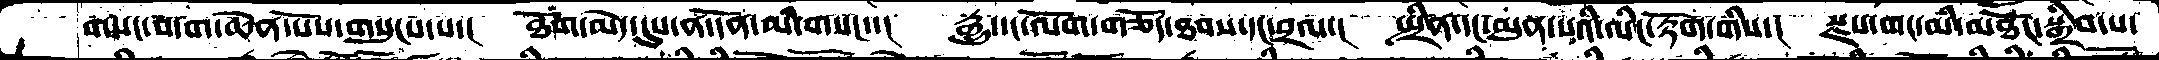གསང་བདག་ཆེན་པོས་གསུངས་པ་།   ཐོག་མེད་དུས་ན་དོན་མི་གསང་་།   རྒྱུ་དང་ལོག་གཅོད་ཐབས་དང་བྲལ་།  སྤྲིན་དང་མུན་པའི་ལིང་རྟོག་གིས་།   སྫས་གང་མིི་མཐོང་སྒྲིབ་པ་
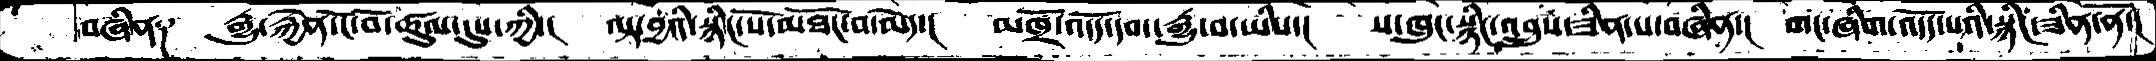བཞིན༑   རྒྱུ་རྐྱེན་ངོ་བོ་ཚུལ་དུས་ཀྱི་།   ལྟ་བྱའི་སྙིང་པོ་མཐོང་བ་མེད་།   མཁྲོ་འདོད་དབང་རྒྱུ་བ་ཡིས་།   ས་ཁུང་སྙིང་འབྲུས་ཟིན་པ་བཞིན་།   གང་ཞིག་འདོད་པའི་སྙིང་ཟིན་ནོ་།
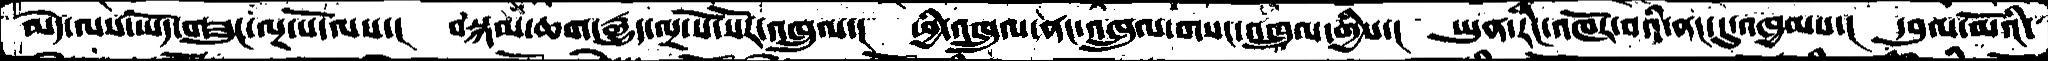མེད་ལས་ཡོད་གཟུང་ལྔ་པོ་ལས་།   བསྐམ་ཆག་རྒྱུད་ལྔ་སོ་སོར་འཁྲུལ་།   ཕྱི་འཁྲུལ་ནང་འཁྲུལ་གསང་འཁྲུལ་གྱིས་།   ཡུན་རིང་འཁོར་བའི་ནང་དུ་འཁྱམས་།   དབུལ་མོའི་
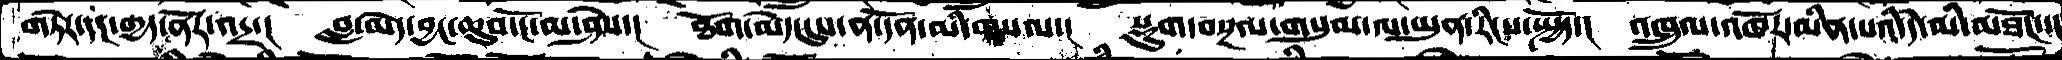གཏེར་དང་གྱད་ནོར་འདྲ་།  བླ་མེད་བྱང་ཆུབ་ངོ་མ་ཤེས་།  ཐོག་མེད་དུས་ན་དོན་མི་གསལ་།  སྡུག་བསྔལ་གསུམ་ལ་ཡུན་རིངས་སྤྱོད་།  འཁྲུལ་འཁོར་མིན་པའི་དེ་མི་མཐོང་་
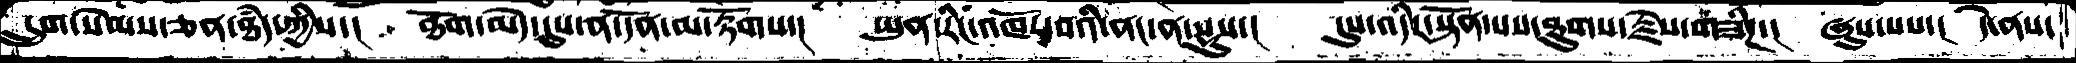དྲུག་སེམས་ཅན་ཐཾད་ཀྱིས་།   ཐོག་མེད་དུས་ན་དོན་མ་རྟོགས་།  ཡུན་རིང་འཁོར་བའི་ནང་ན་སྡུས་།  དུས་འདིར་སྟོན་པས་ཐུགས་རྗེས་གཟིཌ་།  ཞུས་པས་།  དེ་ནས་
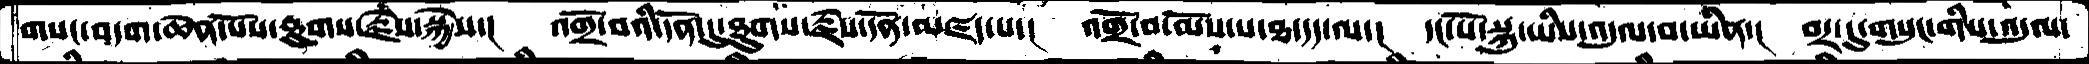གསང་བདག་ཆེན་པོས་ཐུགས་རྗེས་སྐྱེས་།  འགྲོ་བའི་དོན་དུ་ཐུགས་རྗེས་དོན་མཛད་པ་།  འགྲོ་བ་མོས་པ་ཐ་དད་ལ་།  དང་པོ་སྐུ་ཡིས་འདུལ་བ་ཡིན་།  བར་དུ་གསུང་གིས་འདུལ་
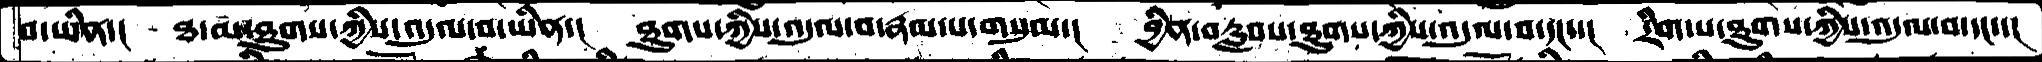བ་ཡིན་།   ཐ་མ་ཐུགས་ཀྱིས་འདུལ་བ་ཡིན་།  ཐུགས་ཀྱིས་འདུལ་བ་རྣམ་པ་གསུམ་།  བྱིན་བརླབས་ཐུགས་ཀྱིས་འདུལ་བ་དང་་།  རིག་པ་ཐུགས་ཀྱིས་འདུལ་བ་དང་་།
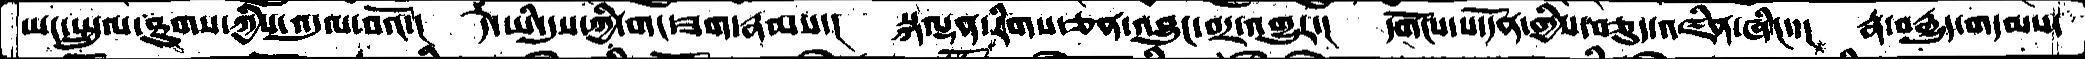ཡང་སྤྲུལ་ཐུགས་ཀྱིས་འདུལ་བའོ་།  དེ་ཡི་དུས་ཀྱི་གང་ཟག་རྣམས་།  སྐལྡན་རིགས་ཅན་འཐུང་བར་འགྱུར་།  དགོངས་པ་དོན་གྱིས་བཅུད་འཛིན་ཞིང་་།  རྣ་བརྒྱུད་གདམས་
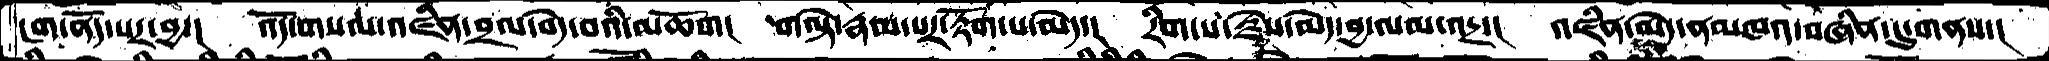ངག་ནོད་པར་བྱ་།  འོད་གསལ་འཛིན་བྲལ་བདེ་བའི་མཆོག།  གལྟེ་རྣམ་པར་རྟོག་པ་མེད་།  རིག་པ་རྗེས་མེད་བྱ་ལམ་འདྲ་།  འཛིན་མེད་ནམཁའ་བཞིན་དུ་གནས་།
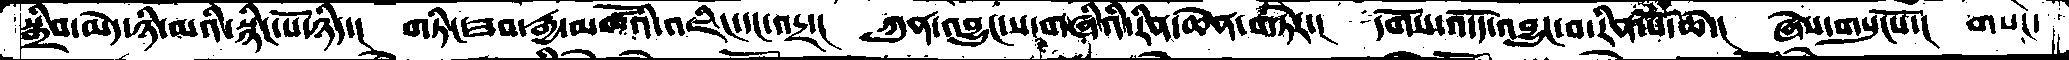སྒྲིབ་མེད་ཉི་མའི་སྙིང་པོ་ཉིད་།  གཏིང་ཟབ་རྒྱ་མཚོའི་འཇིང་དང་འདྲ་།  ཀུན་འབྱུང་ས་གཞིའི་རིན་ཆེན་གཏེར་།  དགོས་འདོད་འབྱུང་བ་རིན་པོ་ཆེ་།  ཞེས་གསུངསོ་།  གསང་
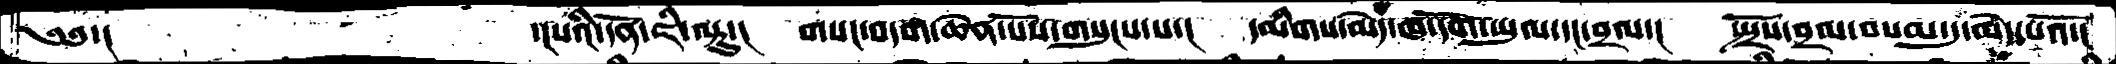༄༅་།       ་།པའི་དོན་ཇི་ལྟུ་།  གསང་བདག་ཆེན་པོས་གསུངས་པ་།  དམིགས་མེད་ཁ་དོག་ཡུལ་དང་བྲལ་།  སྤྲོས་བྲལ་བསམ་དུ་མེད་པའོ་།
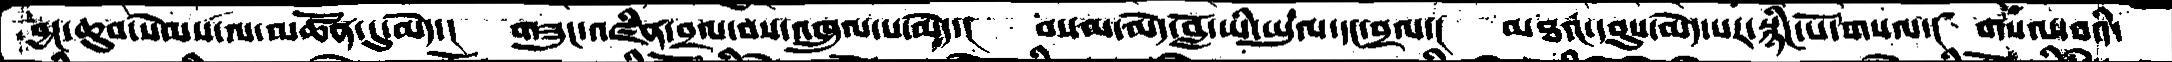བྱང་ཆུབ་སེམས་ལ་མཚོན་དུ་མེད་།  གཟུང་འཛིན་བྲལ་བས་འཁྲུལ་པ་མེད་།  བསམ་མེད་བློ་ཡི་ཡུལ་དང་བྲལ་།  མཐའ་དབུས་མེད་པར་སྙིང་པོ་གསལ་།  གསལ་བའི་
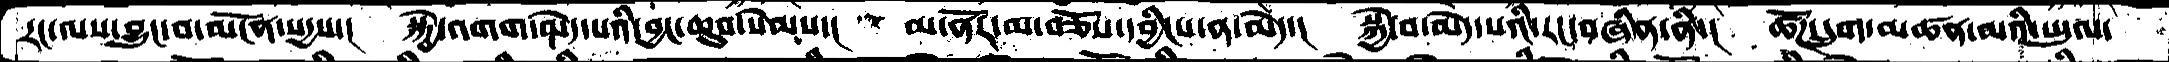རང་ལས་བྱུང་བ་མངོན་སདྱས་།   སྐྱེ་འགག་མེད་པའི་བྱང་ཆུབ་སེམས་།   མ་ནོར་མ་བཅོས་དབྱིངས་ན་མེད་།   སྐྱེ་བ་མེད་པའི་རང་བཞིན་ནི་།   ཚོཌ་དྲུག་མཚན་མའི་ཡུལ་
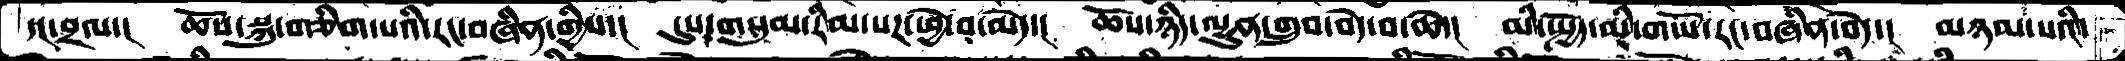དང་བྲལ་།   ཆོས་སྐུ་གཅིག་པའི་རང་བཞིན་གྱིས་།   དུས་གསུམ་རིམ་པར་ཕྱེ་བ་མེད་།   ཆོས་ཉིད་ལྷུན་གྲུབ་བདེ་བ་ཆེ་།   མི་སྤྱོད་མི་གཡོ་རང་བཞིན་བདེ་།   མཉམ་པའི་
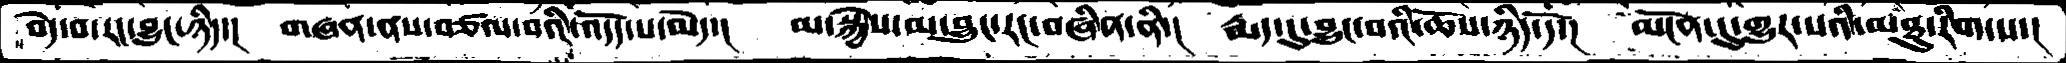བདེ་བ་རང་བྱུང་ཉིད་།   གཞན་ནས་བཙལ་བའི་འདོད་པ་མེད་།   མ་སྐྱེས་མ་བྱུང་རང་བཞིན་ནི་།   རྨད་དུ་བྱུང་བའི་ཆོས་ཉིད་དོ།   མངོན་དུ་གྱུར་པའི་མཐུ་རིག་ས་།
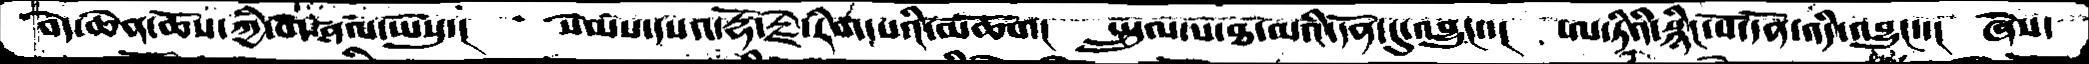བདེ་ཆེན་ཆོས་ཀྱི་གཞལ་ཡསུ་།     སེམས་དཔའ་རྡོ་རྗེ་རིག་པའི་མཆོག།   སྤྲུལ་པ་ཐ་མའི་དོན་དུ་འབྱུང་་།   ཨ་ཏིའི་སྙིང་པོ་དོན་འདི་འབྱུང་་།  ཞེས་
